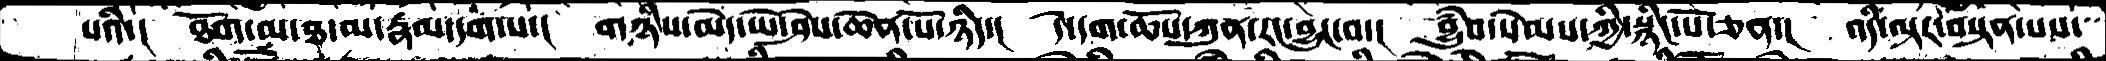པའི་།  ཐོག་མ་ཐ་མ་རྣམ་དག་པ་།  གཉིས་མེད་ཡེ་ཤེས་ཆེན་པོ་ཉིད་།   དེ་དག་ཆོས་ཀུན་རང་བྱུང་བ་།  བྱུཾབ་སེམས་ཀྱི་སྙིང་པོ་ཅན་།  འདི་ལྟར་བསྟན་པས་
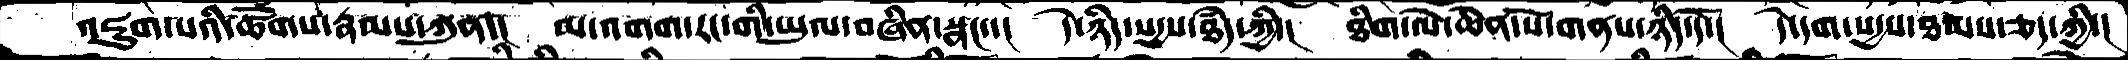འཇུག་པའི་ཚོགས་རྣམས་ཀུན་།  མ་འགག་རང་གི་ཡུལ་བཞིན་སྣང་་།  དེ་ཉིད་སདྱས་ཐཾད་ཀྱི་།  ཐིག་ལེ་ཆེན་པོ་གནས་ཉིད་དོ་།  དེ་དག་སདྱས་ཐམས་ཅད་ཀྱི་།
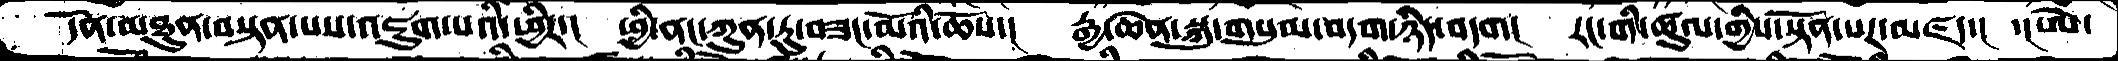དོན་མཐུན་བསྟན་པས་འཇུག་པའི་ཕྱིར་།  ཕྱི་ནང་ཀུན་ཏུ་བཟང་མོའི་ཆོས་།  རྒྱ་ཆེན་སྐུ་གསུམ་བདག་ཉིད་བདག།  རང་གི་ཚུལ་གྱིས་སྟོན་པར་མཛད་།  ་།ཨེ་
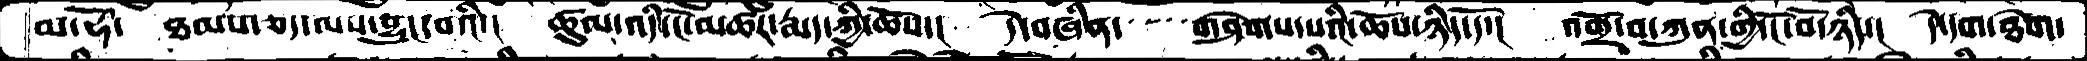མ་ཧོ་  ཐམས་ཅད་ལས་བྱུང་བའི་།  ཚུལ་འདི་ངོ་མཚར་རྨད་ཀྱི་ཆོས་།  དེ་བཞིན་  གཤེགས་པའི་ཆོས་ཉིད་དོ་།  འགྲོ་བ་ཀུན་གྱི་ངོ་བོ་ཉིད་།  དེ་དག་ཐེག་
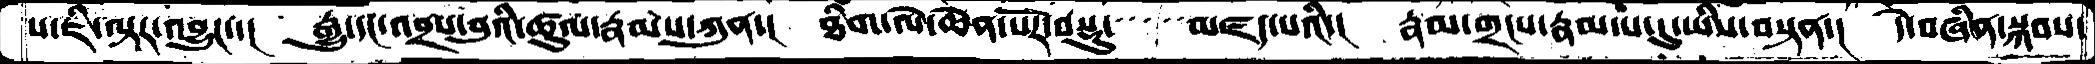པ་ཇི་ལྟར་འབྱུང་།  རྒྱུ་དང་འབྲས་བུའི་ཚུལ་རྣམས་ཀུན་།  ཐིག་ལེ་ཆེན་པོར་བསྡུ་    མཛད་པའི་།  རྣམ་གྲངས་རྣམ་པ་དུ་ཡིས་བསྟན་།  དེ་བཞིན་སྐབས་
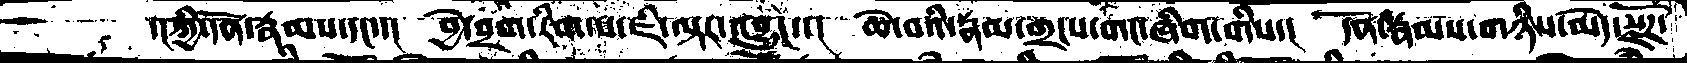་།ཀྱི་དོན་རྣམས་དང་།  བྱེ་བྲག་རིག་པ་ཇི་ལྟར་འབྱུང་།  ཆེ་བའི་རྣམ་གྲངས་གང་ཞིག་གིས་།  དོན་རྣམས་གཉིས་མེད་སྫོཌ་
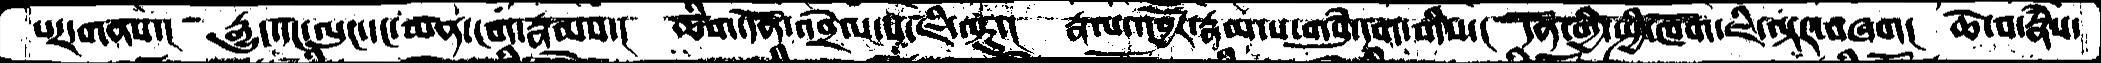པར་གནས་།  རྒྱུ་དང་ལུང་དང་མན་ངག་རྣམས་།  ཚིག་དོན་འབྲེལ་པ་ཇི་ལྟུ་།  རྣལ་འབྱོར་རྣམ་པ་གསུཾ་དག་གིས་།  དོན་གྱི་སྤྱི་ཁོག་ཇི་ལྟར་བཞག།  ཆེ་བ་རྣཾས་
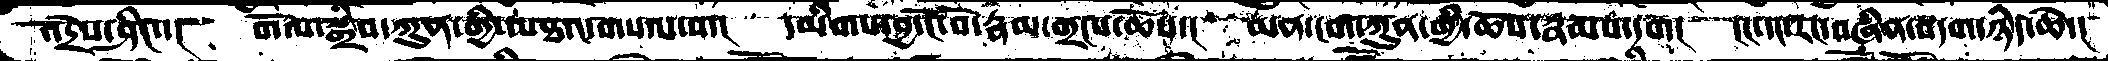འདྲེས་ཤིང་་། གོལ་སྒྲིབ་ཀུན་གྱི་མཐའ་གསལ་བ་། དམིགས་བྱ་ངོ་བོ་རྣམ་གྲངས་ཆོས་། མན་ངག་ཀུན་གྱི་ཆོས་རྣམ་དག། ངང་དང་རང་བཞིན་བདག་ཉིད་ཆེ་།
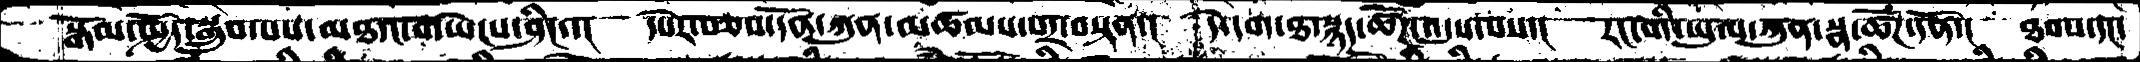སྒོམ་སྤྱོད་སྒྲུབ་པས་མཐའ་གཡེངས་ཤིང་་།   དཔེར་བཅས་དོན་ཀུན་མཚམས་པར་བསྟན་།   དེ་དག་ཐསྙད་ཚོཌ་འདུས་པས་།  རང་གི་ཡུལ་ཀུན་སྣ་ཚོཌ་དོན་།  ཐབས་དང་
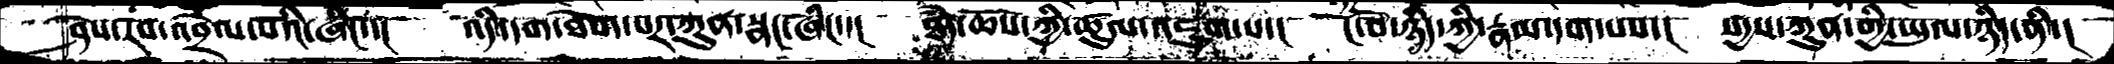ཤེས་རབ་འབྲེལ་པའི་ཞིང་་།  འདི་དག་ཐོག་པར་ཀུན་སྣང་ཞིང་་།   ཐཾད་ཆོས་ཀྱི་ཚུལ་འཇུག་པ་།  ངོ་བོ་ཉིད་ཀྱི་རྣམ་དག་པས་།  སདྱས་ཀུན་གྱི་ཡུལ་ཉིད་ནི་།
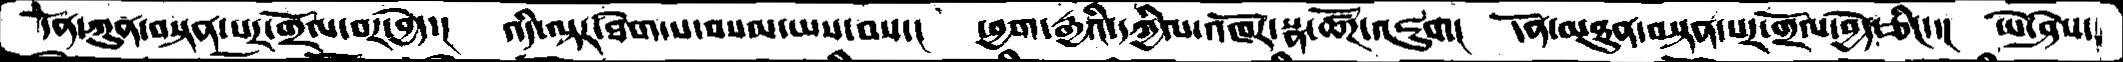དོན་ཀུན་བསྟན་པར་གྲྲོལ་བར་བྱེད་།  འདི་ལྟར་ཐེག་པ་བསམ་ཡས་བས་།  ཕྱག་རྒྱའི་དཀྱིལ་འཁོར་སྣ་ཚོཌ་འཇུག།  དོན་མཐུན་བསྟན་པར་གྲོལ་བྱེད་ཅིང་་།  ཡེ་ཤེས་
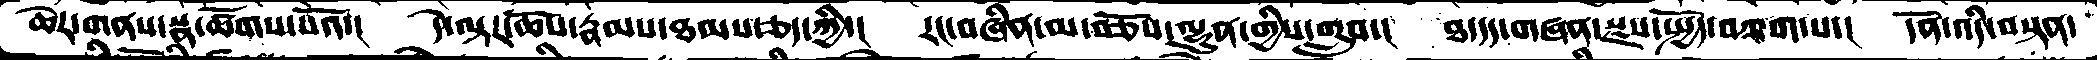ཆེར་གནས་སྣ་ཚོགས་པའོ་།   དེ་ལྟར་ཆོས་རྣམས་ཐམས་ཅད་ཀྱི་།  རང་བཞིན་མ་བཅོས་ལྷུན་གྱིས་གྲུབ་།  ཐ་དད་གཞན་སྫས་སྤྱོད་བཀག་པ་།  དོན་འདི་བསྟན་
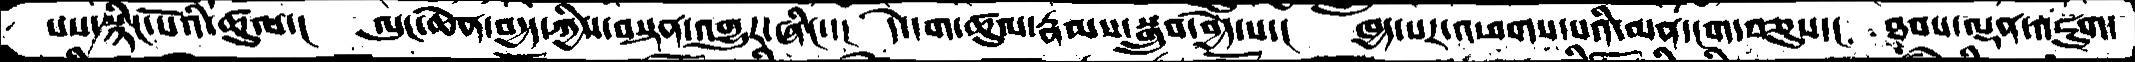པས་སྙིང་པོའི་ཚུལ་།   ལུང་ཆེན་བདྱད་ཀྱིས་བསྟན་འགྱུར་ཞིང་་།   དེ་དག་ཚུལ་རྣམས་སྒྲུབ་བྱེད་པ་།   ཁྱད་པར་འཕགས་པའི་མན་ངག་བཅུས་།  ཐབས་ལྡན་འཇུག་
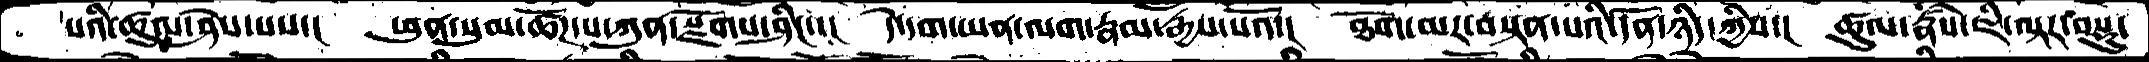པའི་ཚུལ་ཤེས་པས་།   ཕུན་སུམ་ཚོཌ་པ་ཀུན་སྫོགས་ཤིང་་།  དེ་དག་ཡན་ལག་རྣམ་རྒྱས་པའོ་།  ཐོག་མར་བསྟན་པའི་དོན་ཉིད་ཀྱིས་།  ཚུལ་རྣཾས་ཇི་ལྟར་བསྡུ་
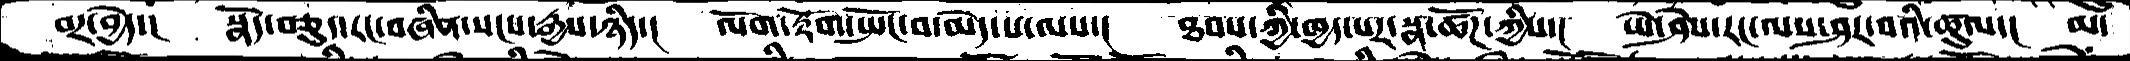བར་བྱེད་།   སྣོད་བཅུད་རང་བཞིན་སངས་རྒྱས་ཉིད་།   ལོག་རྟོག་སྤོང་བ་མེད་པ་ལས་།  ཐབས་ཀྱི་ཁྱད་པར་སྣ་ཚོཌ་ཀྱིས་།  ཡེ་ཤེས་རང་ལས་ཤར་བའི་ཚུལ་།  མ་
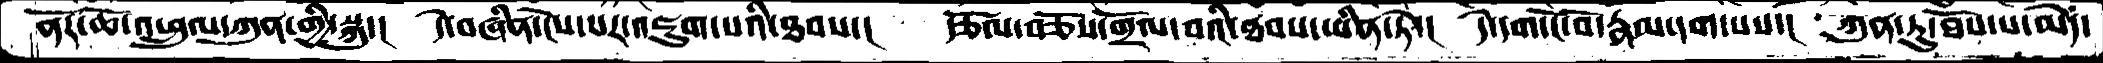ནོར་ཆོ་འཕྲུལ་ཀུན་གྱི་སྐུ་།   དེ་བཞིན་ངེས་པར་འཇུག་པའི་ཐབས་།   རྩོལ་བཅོས་གྲོལ་བའི་ཐབས་ཡིན་ཏེ་།   དེ་དག་ངོ་བོ་རྣམ་དག་པས་།  ཀུན་ཏུ་ཐོས་པ་མེད་
